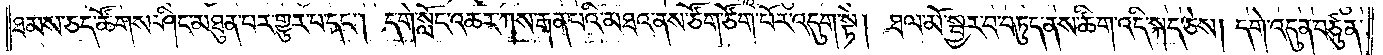ཐམས་ཅད་ཚོགས་ཤིང་མཐུན་པར་གྱུར་པ་དང༌། དགེ་སློང་འཆར་ཀས་རྒན་པའི་མཐའ་ནས་ཙོག་ཙོག་པོར་འདུག་སྟེ། ཐལ་མོ་སྦྱར་བ་བཏུད་ནས་ཚིག་འདི་སྐད་ཅེས། དགེ་འདུན་བཙུན་
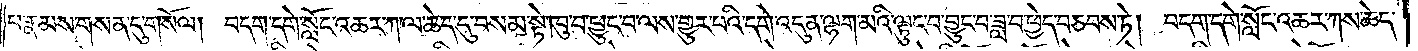པ་རྣམས་གསན་དུ་གསོལ། བདག་དགེ་སློང་འཆར་ཀ་ལ་ཆེད་དུ་བསམ་སྟེ་ཁུ་བ་ཕྱུང་བ་ལས་གྱུར་པའི་དགེ་འདུན་ལྷག་མའི་ལྟུང་བ་བྱུང་བ་ཟླ་བ་ཕྱེད་བཅབས་ཏེ། བདག་དགེ་སློང་འཆར་ཀས་ཆེད་
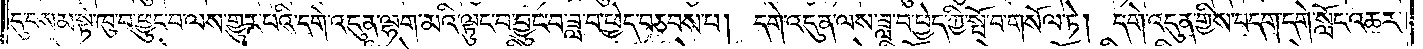དུ་བསམ་སྟེ་ཁུ་བ་ཕྱུང་བ་ལས་གྱུར་པའི་དགེ་འདུན་ལྷག་མའི་ལྟུང་བ་བྱུང་བ་ཟླ་བ་ཕྱེད་བཅབས་པ། དགེ་འདུན་ལས་ཟླ་བ་ཕྱེད་ཀྱི་སྤོ་བ་གསོལ་ཏེ། དགེ་འདུན་གྱིས་བདག་དགེ་སློང་འཆར་
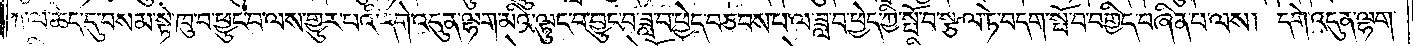ཀ་ལ་ཆེད་དུ་བསམ་སྟེ་ཁུ་བ་ཕྱུང་བ་ལས་གྱུར་པའི་དགེ་འདུན་ལྷག་མའི་ལྟུང་བ་བྱུང་བ་ཟླ་བ་ཕྱེད་བཅབས་པ་ལ་ཟླ་བ་ཕྱེད་ཀྱི་སྤོ་བ་སྩལ་ཏེ་བདག་སྤོ་བ་བགྱིད་བཞིན་པ་ལས། དགེ་འདུན་ལྷག་
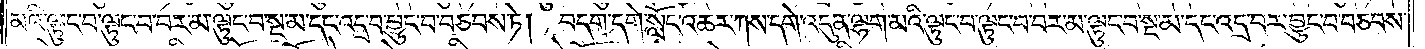མའི་ལྟུང་བ་ལྟུང་བ་བར་མ་ལྟུང་བ་སྔ་མ་དང་འདྲ་བ་བྱུང་བ་བཅབས་ཏེ། བདག་དགེ་སློང་འཆར་ཀས་དགེ་འདུན་ལྷག་མའི་ལྟུང་བ་ལྟུང་བ་བར་མ་ལྟུང་བ་སྔ་མ་དང་འདྲ་བར་བྱུང་བ་བཅབས་
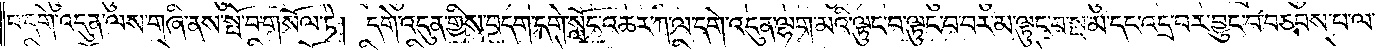པ་དགེ་འདུན་ལས་གཞི་ནས་སྤོ་བ་གསོལ་ཏེ། དགེ་འདུན་གྱིས་བདག་དགེ་སློང་འཆར་ཀ་ལ་དགེ་འདུན་ལྷག་མའི་ལྟུང་བ་ལྟུང་བ་བར་མ་ལྟུང་བ་སྔ་མ་དང་འདྲ་བར་བྱུང་བ་བཅབས་པ་ལ་
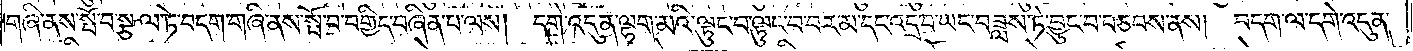གཞི་ནས་སྤོ་བ་སྩལ་ཏེ་བདག་གཞི་ནས་སྤོ་བ་བགྱིད་བཞིན་པ་ལས། དགེ་འདུན་ལྷག་མའི་ལྟུང་བ་ལྟུང་བ་བར་མ་དང་འདྲ་བ་ཡང་བཟླས་ཏེ་བྱུང་བ་བཅབས་ནས། བདག་ལ་དགེ་འདུན་
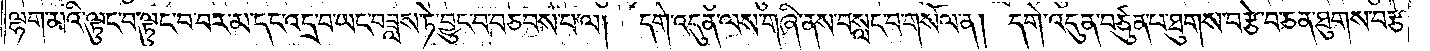ལྷག་མའི་ལྟུང་བ་ལྟུང་བ་བར་མ་དང་འདྲ་བ་ཡང་བཟླས་ཏེ་བྱུང་བ་བཅབས་པ་ལ། དགེ་འདུན་ལས་གཞི་ནས་བསླང་བ་གསོལ་ན། དགེ་འདུན་བཙུན་པ་ཐུགས་བརྩེ་བ་ཅན་ཐུགས་བརྩེ་
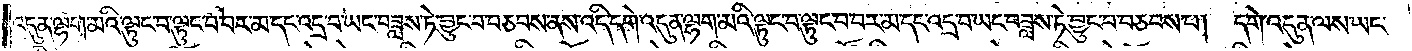འདུན་ལྷག་མའི་ལྟུང་བ་ལྟུང་བ་བར་མ་དང་འདྲ་བ་ཡང་བཟླས་ཏེ་བྱུང་བ་བཅབས་ནས་འདི་དགེ་འདུན་ལྷག་མའི་ལྟུང་བ་ལྟུང་བར་མ་དང་འདྲ་བ་ཡང་བཟླས་ཏེ་བྱུང་བ་བཅབས་པ། དགེ་འདུན་ལས་ཡང་
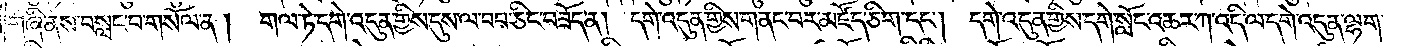གཞི་ནས་བསླང་བ་གསོལ་ན། གལ་ཏེ་དགེ་འདུན་གྱིས་དུས་ལ་བབ་ཅིང་བཟོད་ན། དགེ་འདུན་གྱིས་གནང་བར་མཛོད་ཅིག་དང༌། དགེ་འདུན་གྱིས་དགེ་སློང་འཆར་ཀ་འདི་ལ་དགེ་འདུན་ལྷག་
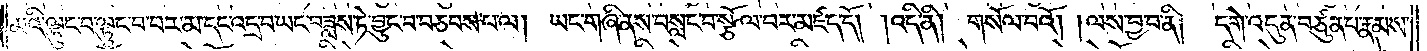མའི་ལྟུང་བ་ལྟུང་བ་བར་མ་དང་འདྲ་བ་ཡང་བཟླས་ཏེ་བྱུང་བ་བཅབས་པ་ལ། ཡང་གཞི་ནས་བསླང་བ་སྩོལ་བར་མཛད་དོ། །འདི་ནི། གསོལ་བའོ། །ལས་བྱ་བ་ནི། དགེ་འདུན་བཙུན་པ་རྣམས་
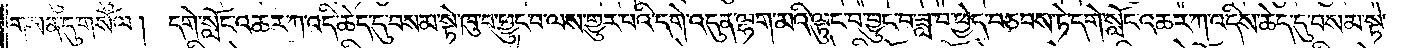གསན་དུ་གསོལ། དགེ་སློང་འཆར་ཀ་འདི་ཆེད་དུ་བསམ་སྟེ་ཁུ་བ་ཕྱུང་བ་ལས་གྱུར་པའི་དགེ་འདུན་ལྷག་མའི་ལྟུང་བ་བྱུང་བ་ཟླ་བ་ཕྱེད་བཅབས་ཏེ་དགེ་སློང་འཆར་ཀ་འདིས་ཆེད་དུ་བསམ་སྟེ་
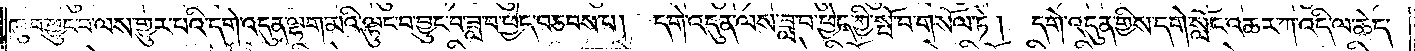ཁུ་བ་ཕྱུང་བ་ལས་གྱུར་པའི་དགེ་འདུན་ལྷག་མའི་ལྟུང་བ་བྱུང་བ་ཟླ་བ་ཕྱེད་བཅབས་པ། དགེ་འདུན་ལས་ཟླ་བ་ཕྱེད་ཀྱི་སྤོ་བ་གསོལ་ཏེ། དགེ་འདུན་གྱིས་དགེ་སློང་འཆར་ཀ་འདི་ལ་ཆེད་
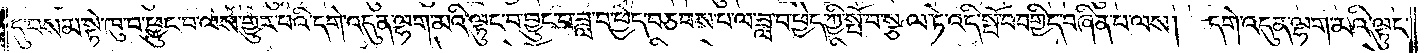དུ་བསམ་སྟེ་ཁུ་བ་ཕྱུང་བ་ལས་གྱུར་པའི་དགེ་འདུན་ལྷག་མའི་ལྟུང་བ་བྱུང་བ་ཟླ་བ་ཕྱེད་བཅབས་པ་ལ་ཟླ་བ་ཕྱེད་ཀྱི་སྤོ་བ་སྩལ་ཏེ་འདི་སྤོ་བ་བགྱིད་བཞིན་པ་ལས། དགེ་འདུན་ལྷག་མའི་ལྟུང་
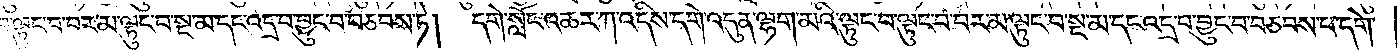བ་ལྟུང་བ་བར་མ་ལྟུང་བ་སྔ་མ་དང་འདྲ་བ་བྱུང་བ་བཅབས་ཏེ། དགེ་སློང་འཆར་ཀ་འདིས་དགེ་འདུན་ལྷག་མའི་ལྟུང་བ་ལྟུང་བ་བར་མ་ལྟུང་བ་སྔ་མ་དང་འདྲ་བ་བྱུང་བ་བཅབས་པ་དགེ་
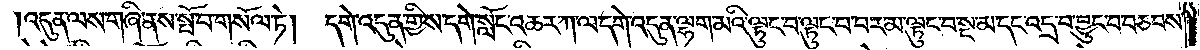འདུན་ལས་གཞི་ནས་སྤོ་བ་གསོལ་ཏེ། དགེ་འདུན་གྱིས་དགེ་སློང་འཆར་ཀ་ལ་དགེ་འདུན་ལྷག་མའི་ལྟུང་བ་ལྟུང་བ་བར་མ་ལྟུང་བ་སྔ་མ་དང་འདྲ་བ་བྱུང་བ་བཅབས་
